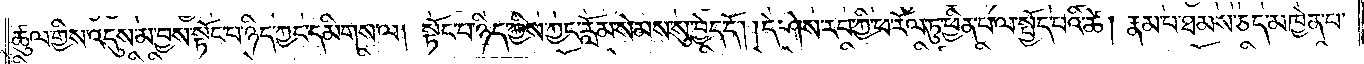ཚུལ་གྱིས་འདུས་མ་བྱས་སྟོང་པ་ཉིད་ཀྱང་དམིགས་ལ། སྟོང་པ་ཉིད་ཀྱིས་ཀྱང་རློམ་སེམས་སུ་བྱེད་དོ། །དེ་ཤེས་རབ་ཀྱི་ཕ་རོལ་ཏུ་ཕྱིན་པ་ལ་སྤྱོད་པའི་ཚེ། རྣམ་པ་ཐམས་ཅད་མཁྱེན་པ་
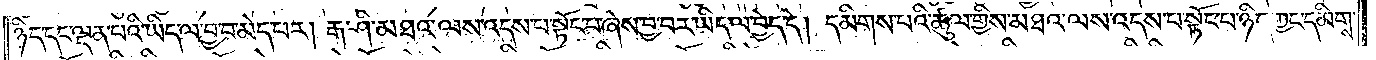ཉིད་དང་ལྡན་པའི་ཡིད་ལ་བྱ་བ་མེད་པར། རྒ་ཤི་མཐའ་ལས་འདས་པ་སྟོང་པ་ཞེས་བྱ་བར་ཡིད་ལ་བྱེད་དེ། དམིགས་པའི་ཚུལ་གྱིས་མཐའ་ལས་འདས་པ་སྟོང་པ་ཉིད་ཀྱང་དམིགས་
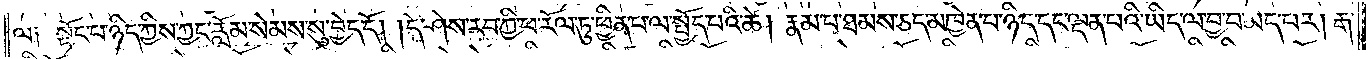ལ། སྟོང་པ་ཉིད་ཀྱིས་ཀྱང་རློམ་སེམས་སུ་བྱེད་དོ། །དེ་ཤེས་རབ་ཀྱི་ཕ་རོལ་ཏུ་ཕྱིན་པ་ལ་སྤྱོད་པའི་ཚེ། རྣམ་པ་ཐམས་ཅད་མཁྱེན་པ་ཉིད་དང་ལྡན་པའི་ཡིད་ལ་བྱ་བ་མེད་པར། རྒ་
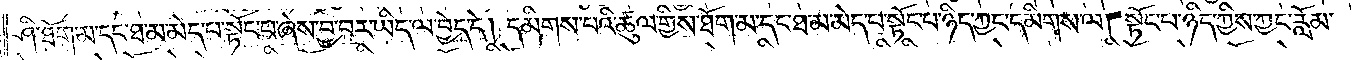ཤི་ཐོག་མ་དང་ཐ་མ་མེད་པ་སྟོང་པ་ཞེས་བྱ་བར་ཡིད་ལ་བྱེད་དེ། དམིགས་པའི་ཚུལ་གྱིས་ཐོག་མ་དང་ཐ་མ་མེད་པ་སྟོང་པ་ཉིད་ཀྱང་དམིགས་ལ། སྟོང་པ་ཉིད་ཀྱིས་ཀྱང་རློམ་
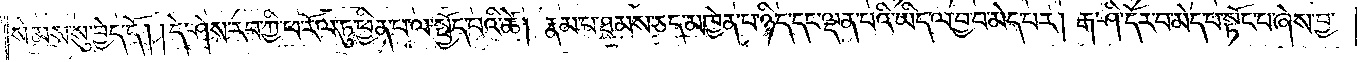སེམས་སུ་བྱེད་དོ། །དེ་ཤེས་རབ་ཀྱི་ཕ་རོལ་ཏུ་ཕྱིན་པ་ལ་སྤྱོད་པའི་ཚེ། རྣམ་པ་ཐམས་ཅད་མཁྱེན་པ་ཉིད་དང་ལྡན་པའི་ཡིད་ལ་བྱ་བ་མེད་པར། རྒ་ཤི་དོར་བ་མེད་པ་སྟོང་པ་ཞེས་བྱ་
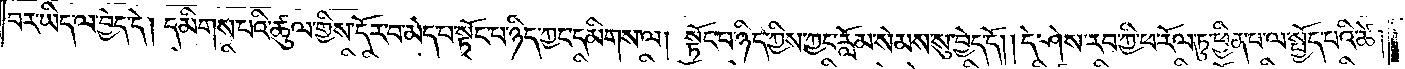བར་ཡིད་ལ་བྱེད་དེ། དམིགས་པའི་ཚུལ་གྱིས་དོར་བ་མེད་པ་སྟོང་པ་ཉིད་ཀྱང་དམིགས་ལ། སྟོང་པ་ཉིད་ཀྱིས་ཀྱང་རློམ་སེམས་སུ་བྱེད་དོ། །དེ་ཤེས་རབ་ཀྱི་ཕ་རོལ་ཏུ་ཕྱིན་པ་ལ་སྤྱོད་པའི་ཚེ།
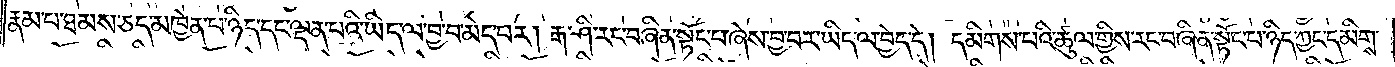རྣམ་པ་ཐམས་ཅད་མཁྱེན་པ་ཉིད་དང་ལྡན་པའི་ཡིད་ལ་བྱ་བ་མེད་པར། རྒ་ཤི་རང་བཞིན་སྟོང་པ་ཞེས་བྱ་བར་ཡིད་ལ་བྱེད་དེ། དམིགས་པའི་ཚུལ་གྱིས་རང་བཞིན་སྟོང་པ་ཉིད་ཀྱང་དམིགས་
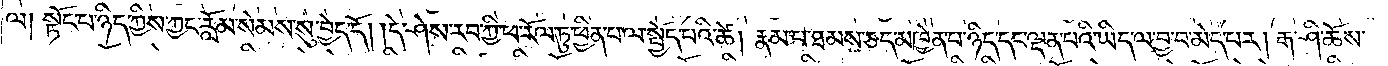ལ། སྟོང་པ་ཉིད་ཀྱིས་ཀྱང་རློམ་སེམས་སུ་བྱེད་དོ། །དེ་ཤེས་རབ་ཀྱི་ཕ་རོལ་ཏུ་ཕྱིན་པ་ལ་སྤྱོད་པའི་ཚེ། རྣམ་པ་ཐམས་ཅད་མཁྱེན་པ་ཉིད་དང་ལྡན་པའི་ཡིད་ལ་བྱ་བ་མེད་པར། རྒ་ཤི་ཆོས་
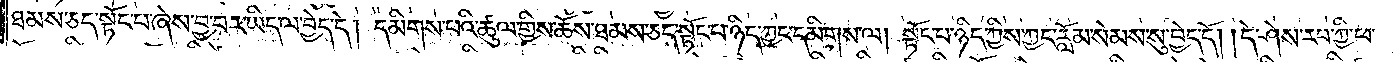ཐམས་ཅད་སྟོང་པ་ཞེས་བྱ་བར་ཡིད་ལ་བྱེད་དེ། དམིགས་པའི་ཚུལ་གྱིས་ཆོས་ཐམས་ཅད་སྟོང་པ་ཉིད་ཀྱང་དམིགས་ལ། སྟོང་པ་ཉིད་ཀྱིས་ཀྱང་རློམ་སེམས་སུ་བྱེད་དོ། །དེ་ཤེས་རབ་ཀྱི་ཕ་
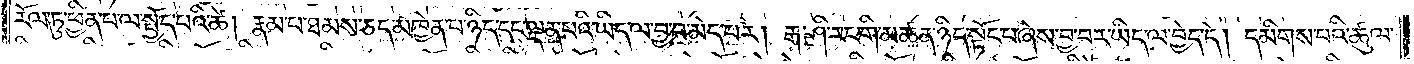རོལ་ཏུ་ཕྱིན་པ་ལ་སྤྱོད་པའི་ཚེ། རྣམ་པ་ཐམས་ཅད་མཁྱེན་པ་ཉིད་དང་ལྡན་པའི་ཡིད་ལ་བྱ་བ་མེད་པར། རྒ་ཤི་རང་གི་མཚན་ཉིད་སྟོང་པ་ཞེས་བྱ་བར་ཡིད་ལ་བྱེད་དེ། དམིགས་པའི་ཚུལ་
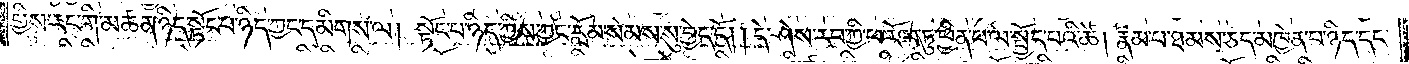གྱིས་རང་གི་མཚན་ཉིད་སྟོང་པ་ཉིད་ཀྱང་དམིགས་ལ། སྟོང་པ་ཉིད་ཀྱིས་ཀྱང་རློམ་སེམས་སུ་བྱེད་དོ། །དེ་ཤེས་རབ་ཀྱི་ཕ་རོལ་ཏུ་ཕྱིན་པ་ལ་སྤྱོད་པའི་ཚེ། རྣམ་པ་ཐམས་ཅད་མཁྱེན་པ་ཉིད་དང་
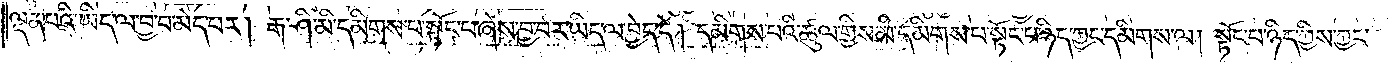ལྡན་པའི་ཡིད་ལ་བྱ་བ་མེད་པར། རྒ་ཤི་མི་དམིགས་པ་སྟོང་པ་ཞེས་བྱ་བར་ཡིད་ལ་བྱད་དེ། དམིགས་པའི་ཚུལ་གྱིས་མི་དམིགས་པ་སྟོང་པ་ཉིད་ཀྱང་དམིགས་ལ། སྟོང་པ་ཉིད་ཀྱིས་ཀྱང་
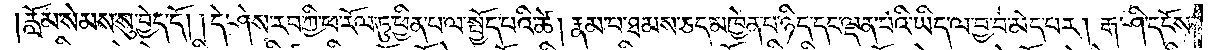རློམ་སེམས་སུ་བྱེད་དོ། །དེ་ཤེས་རབ་ཀྱི་ཕ་རོལ་ཏུ་ཕྱིན་པ་ལ་སྤྱོད་པའི་ཚེ། རྣམ་པ་ཐམས་ཅད་མཁྱེན་པ་ཉིད་དང་ལྡན་པའི་ཡིད་ལ་བྱ་བ་མེད་པར། རྒ་ཤི་དངོས་
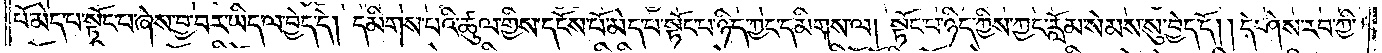པོ་མེད་པ་སྟོང་པ་ཞེས་བྱ་བར་ཡིད་ལ་བྱེད་དེ། །དམིགས་པའི་ཚུལ་གྱིས་དངོས་པོ་མེད་པ་སྟོང་པ་ཉིད་ཀྱང་དམིགས་ལ། སྟོང་ལ་ཉིད་ཀྱིས་ཀྱང་རློམ་སེམས་སུ་བྱེད་དོ། །དེ་ཤེས་རབ་ཀྱི་
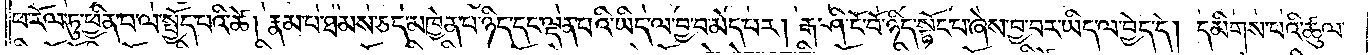ཕ་རོལ་ཏུ་ཕྱིན་པ་ལ་སྤྱོད་པའི་ཚེ། རྣམ་པ་ཐམས་ཅད་མཁྱེན་པ་ཉིད་དང་ལྡན་པའི་ཡིད་ལ་བྱ་བ་མེད་པར། རྒ་ཤི་ངོ་བོ་ཉིད་སྟོང་པ་ཞེས་བྱ་བར་ཡིད་ལ་བྱེད་དེ། དམིགས་པའི་ཚུལ་
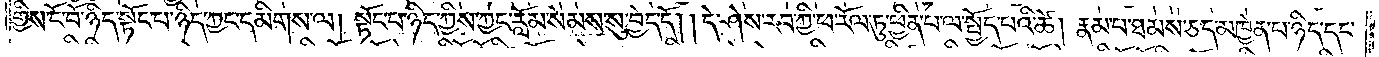གྱིས་ངོ་བོ་ཉིད་སྟོང་པ་ཉིད་ཀྱང་དམིགས་ལ། སྟོང་པ་ཉིད་ཀྱིས་ཀྱང་རློམ་སེམས་སུ་བྱེད་དོ། །དེ་ཤེས་རབ་ཀྱི་ཕ་རོལ་ཏུ་ཕྱིན་པ་ལ་སྤྱོད་པའི་ཚེ། རྣམ་པ་ཐམས་ཅད་མཁྱེན་པ་ཉིད་དང་
